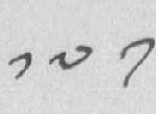༡༧༡
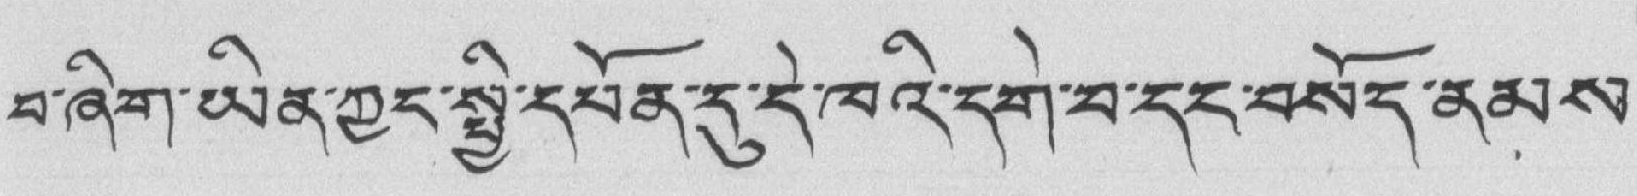བ་ཞིག་ཡིན་ཀྱང་སྤྱི་དཔོན་དུ་དེ་ཁའི་དགེ་བ་དང་བསོད་ནམས་
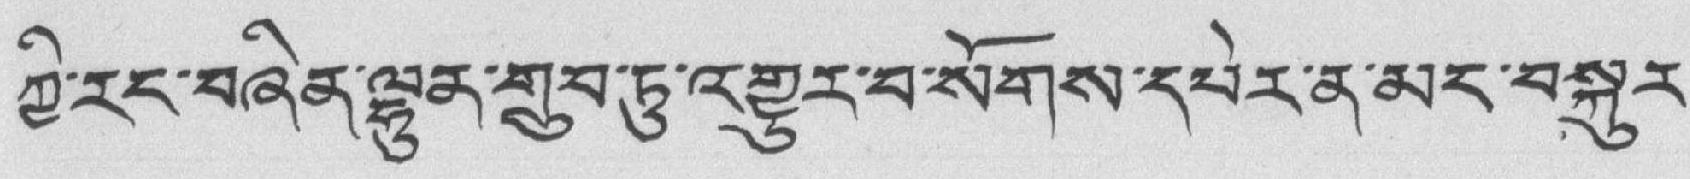ཀྱི་རང་བཞིན་ལྷུན་གྲུབ་ཏུ་འགྱུར་བ་སོགས་དཔེར་ན་མང་བསྐུར་
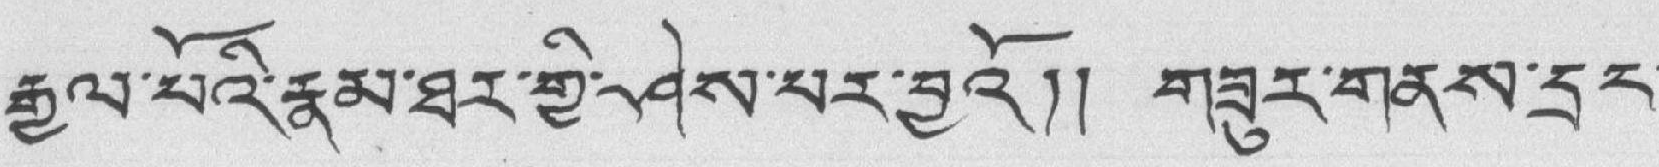རྒྱལ་པོའི་རྣམ་ཐར་གྱི་དཤེས་པར་བྱའོ།། གཟུར་གནས་དྲང་
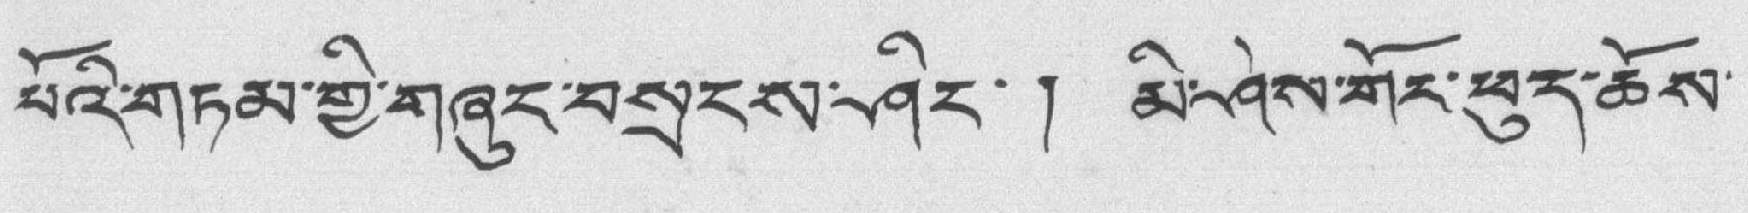པོའི་གཏམ་གྱི་གཞུང་བསྲངས་ཤིང་། མི་ཤེས་གོང་ཕུད་ཆོས་
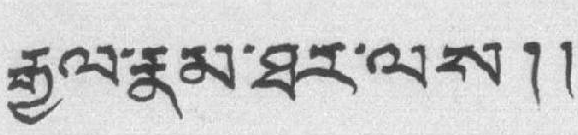རྒྱལ་རྣམ་ཐར་ལས།།
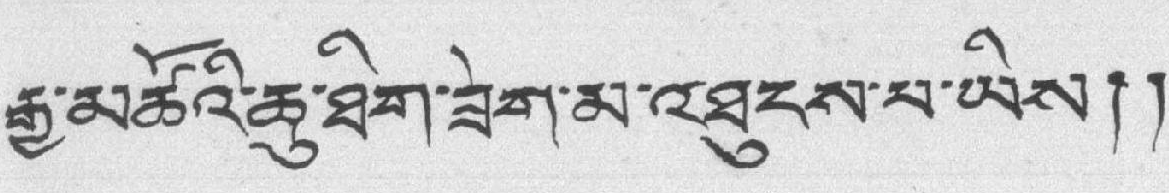རྒྱ་མཚོའི་ཆུ་ཐིག་ཟེག་མ་འཐུངས་པ་ཡིས།།
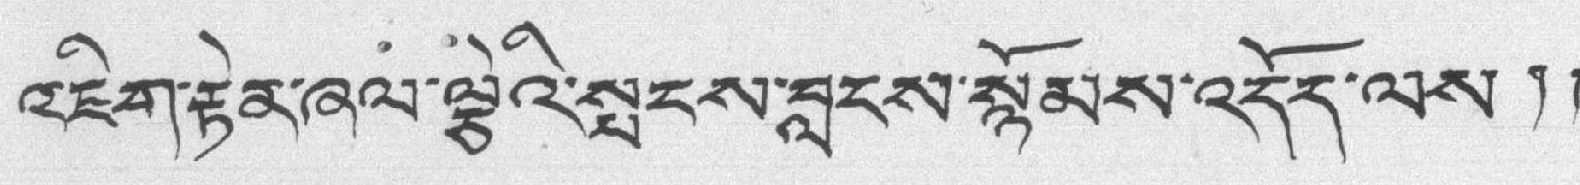འཇིག་རྟེན་ཞལ་ལྕེའི་སྤངས་བླངས་སྙོམས་འདོར་ལས།།
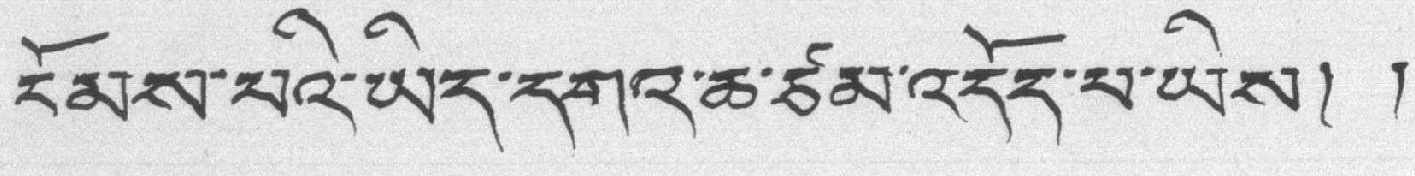ངོམས་པའི་ཡིད་དགའ་ཆ་ཙམ་འདོད་པ་ཡས། །
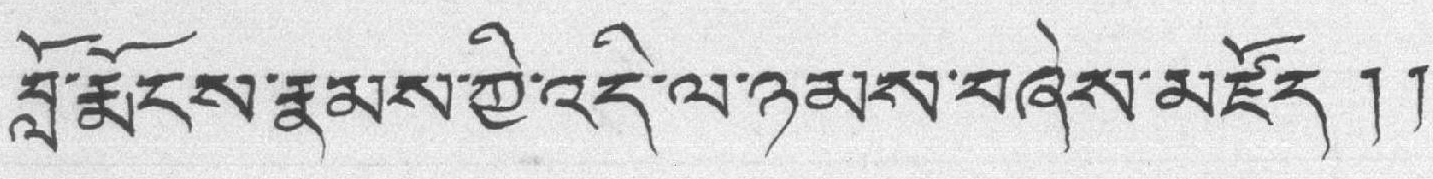བློ་རྨོངས་རྣམས་ཀྱི་འདི་ལ་ཉམས་བཞེས་མཛོད།།
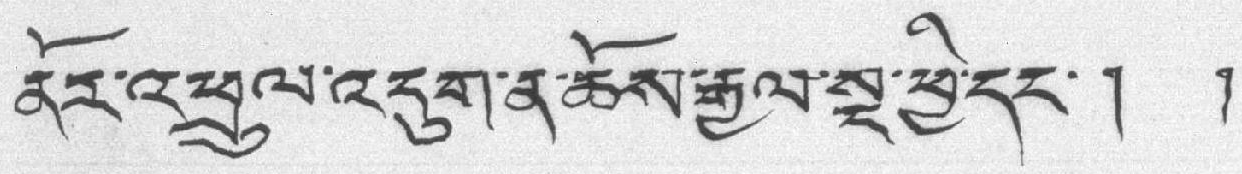ནར་འཕྲུལ་འདུག་ན་ཆོས་རྒྱལ་སྔ་ཕྱི་དང་། །
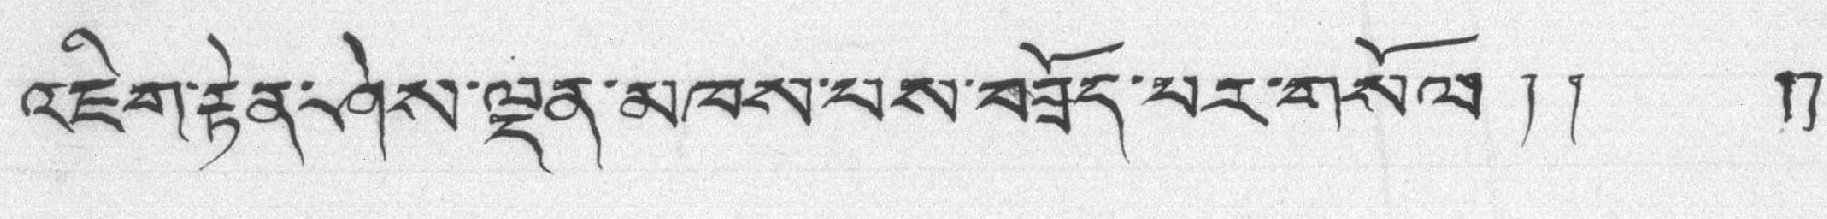འཇིག་རྟེན་ཤེས་ལྡན་མཁས་པས་བཟོད་པར་གསོལ།། །།
